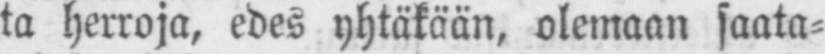ta herroja, edes yhtäkään, olemaan säätä-
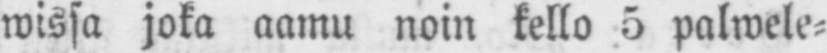wissä joka aamu noin kello 5 palwele-
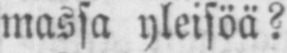massa yleisöä?
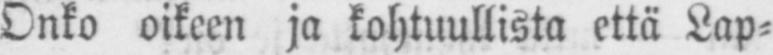Onko oikeen ja kohtuullista että Lap-
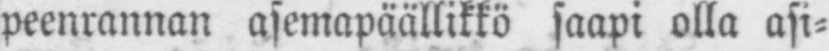peenrannan asemapäällikkö saapi olla asi-
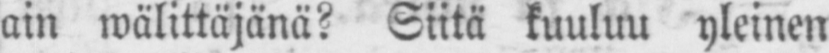ain wälittäjänä? Siitä kuuluu yleinen
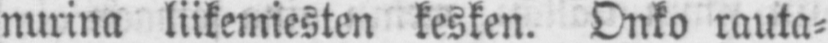nurina liikemiesten kesken. Onko rauta-
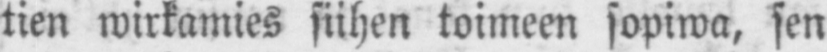tien wirkamies siihen toimeen sopiwa, sen
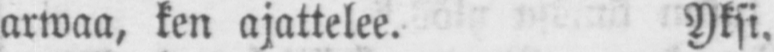arwaa, ken ajattelee. Yksi.
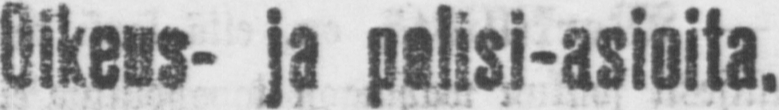Oikeus- ja palisi-asioita.
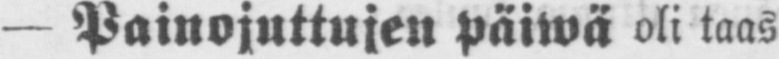— Painojuttujen päiwä oli taas
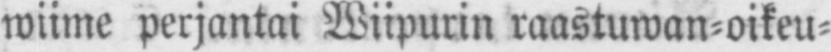wiime perjantai Wiipurin raastuwan-oikeu-
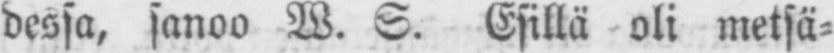dessa, sanoo W. S. Esillä oli metsä-
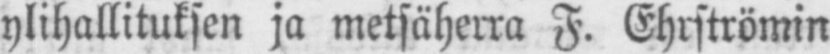ylihallituksen ja metsäherra F. Ehrströmin
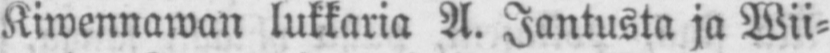Kiwennawan lukkaria A. Jantusta ja Wii-
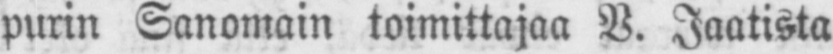purin Sanomain toimittajaa V. Jaatista
